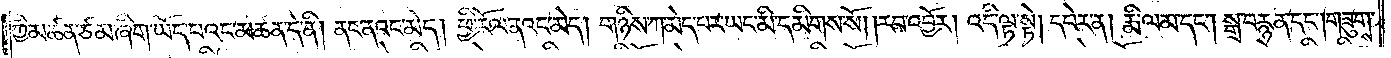ཀྱི་མཚན་ཙམ་ཞིག་ཡོད་པའང་མཚན་དེ་ནི། ནང་ནའང་མེད། ཕྱི་རོལ་ནའང་མེད། གཉིས་ཀ་མེད་པར་ཡང་མི་དམིགས་སོ། །རབ་འབྱོར། འདི་ལྟ་སྟེ། དཔེར་ན། རྨི་ལམ་དང༌། སྒྲ་བརྙན་དང༌། གཟུགས་
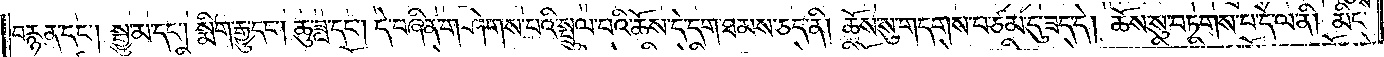བརྙན་དང༌། སྒྱུ་མ་དང༌། སྨིག་རྒྱུ་དང༌། ཆུ་ཟླ་དང༌། དེ་བཞིན་གཤེགས་པའི་སྤྲུལ་པའི་ཆོས་དེ་དག་ཐམས་ཅད་ནི། ཆོས་སུ་གདགས་པ་ཙམ་དུ་ཟད་དེ། ཆོས་སུ་བཏགས་པ་དེ་ལ་ནི། མིང་
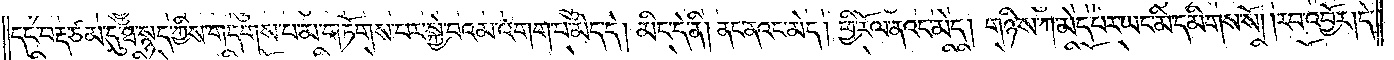དང་བརྡ་ཙམ་དུ་ཐ་སྙད་ཀྱིས་གདགས་པ་མ་གཏོགས་པར་སྐྱེ་བའམ་འགག་པ་མེད་དེ། མིང་དེ་ནི། ནང་ནའང་མེད། ཕྱི་རོལ་ནའང་མེད། གཉིས་ཀ་མེད་པར་ཡང་མི་དམིགས་སོ། །རབ་འབྱོར། དེ་
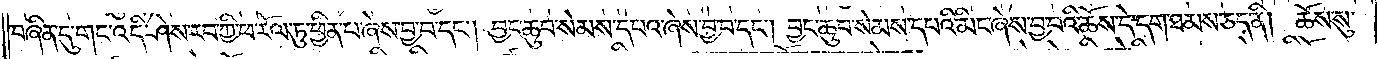བཞིན་དུ་གང་འདི་ཤེས་རབ་ཀྱི་ཕ་རོལ་ཏུ་ཕྱིན་པ་ཞེས་བྱ་བ་དང༌། བྱང་ཆུབ་སེམས་དཔའ་ཞེས་བྱ་བ་དང༌། བྱང་ཆུབ་སེམས་དཔའི་མིང་ཞེས་བྱ་བའི་ཆོས་དེ་དག་ཐམས་ཅད་ནི། ཆོས་སུ་
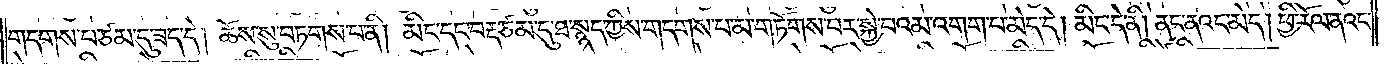གདགས་པ་ཙམ་དུ་ཟད་དེ། ཆོས་སུ་བཏགས་པ་ནི། མིང་དང་བརྡ་ཙམ་དུ་ཐ་སྙད་ཀྱིས་གདགས་པ་མ་གཏོགས་པར་སྐྱེ་བའམ་འགག་པ་མེད་དེ། མིང་དེ་ནི། ནང་ནའང་མེད། ཕྱི་རོལ་ནའང་
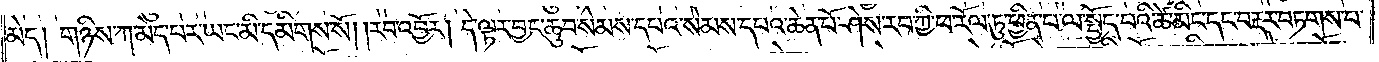མེད། གཉིས་ཀ་མེད་པར་ཡང་མི་དམིགས་སོ། །རབ་འབྱོར། དེ་ལར་བྱང་ཆུབ་སེམས་དཔའ་སེམས་དཔའ་ཆེན་པོ་ཤེས་རབ་ཀྱི་ཕ་རོལ་ཏུ་ཕྱིན་པ་ལ་སྤྱོད་པའི་ཚེ་མིང་དང་བརྡར་བཏགས་པ་
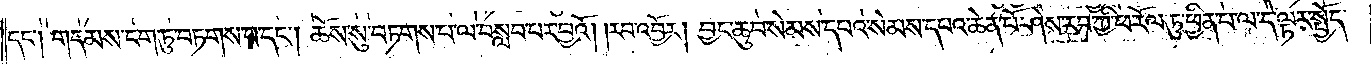དང༌། གདམས་ངག་ཏུ་བཏགས་པ་དང༌། ཆོས་སུ་བཏགས་པ་ལ་བསླབ་པར་བྱའོ། །རབ་འབྱོར། བྱང་ཆུབ་སེམས་དཔའ་སེམས་དཔའ་ཆེན་པོ་ཤེས་རབ་ཀྱི་ཕ་རོལ་ཏུ་ཕྱིན་པ་ལ་དེ་ལྟར་སྤྱོད་
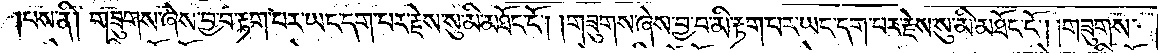པས་ནི། གཟུགས་ཞེས་བྱ་བ་རྟག་པར་ཡང་དག་པར་རྗེས་སུ་མི་མཐོང་ངོ༌། །གཟུགས་ཞེས་བྱ་བ་མི་རྟག་པར་ཡང་དག་པར་རྗེས་སུ་མི་མཐོང་ངོ༌། །གཟུགས་
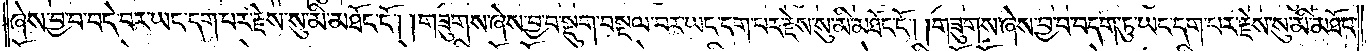ཞེས་བྱ་བ་བདེ་བར་ཡང་དག་པར་རྗེས་སུ་མི་མཐོང་ངོ༌། །གཟུགས་ཞེས་བྱ་བ་སྡུག་བསྔལ་བར་ཡང་དག་པར་རྗེས་སུ་མིང་མཐོང་ངོ༌། །གཟུགས་ཞེས་བྱ་བ་བདག་ཏུ་ཡང་དག་པར་རྗེས་སུ་མི་མཐོང་
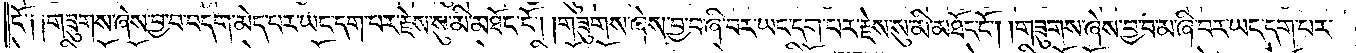ངོ༑ ༑གཟུགས་ཞེས་བྱ་བ་བདག་མེད་པར་ཡང་དག་པར་རྗེས་སུ་མི་མཐོང་ངོ༌། །གཟུགས་ཞེས་བྱ་བ་ཞི་བར་ཡང་དག་པར་རྗེས་སུ་མི་མཐོང་ངོ༌། །གཟུགས་ཞེས་བྱ་བ་མ་ཞི་བར་ཡང་དག་པར་
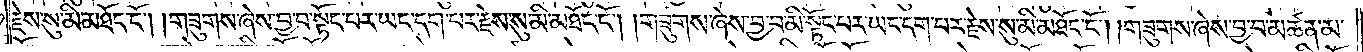རྗེས་སུ་མི་མཐོང་ངོ༌། །གཟུགས་ཞེས་བྱ་བ་སྟོང་པར་ཡང་དག་པར་རྗེས་སུ་མི་མཐོང་ངོ༌། །གཟུགས་ཞེས་བྱ་བ་མི་སྟོང་པར་ཡང་དག་པར་རྗེས་སུ་མི་མཐོང་ངོ༌། །གཟུགས་ཞེས་བྱ་བ་མཚན་མ་
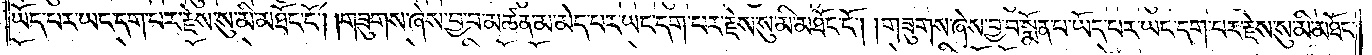ཡོད་པར་ཡང་དག་པར་རྗེས་སུ་མི་མཐོང་ངོ༌། །གཟུགས་ཞེས་བྱ་བ་མཚན་མ་མེད་པར་ཡང་དག་པར་རྗེས་སུ་མི་མཐོང་ངོ༌། །གཟུགས་ཞེས་བྱ་བ་སྨོན་པ་ཡོད་པར་ཡང་དག་པར་རྗེས་སུ་མི་མཐོང་
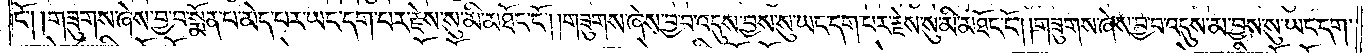ངོ༌། །གཟུགས་ཞེས་བྱ་བ་སྨོན་པ་མེད་པར་ཡང་དག་པར་རྗེས་སུ་མི་མཐོང་ངོ༌། །གཟུགས་ཞེས་བྱ་བ་འདུས་བྱས་སུ་ཡང་དག་པར་རྗེས་སུ་མི་མཐོང་ངོ༌། །གཟུགས་ཞེས་བྱ་བ་འདུས་མ་བྱས་སུ་ཡང་དག་
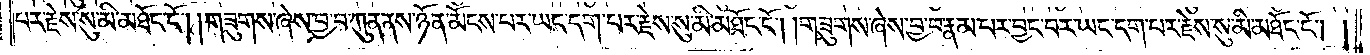པར་རྗེས་སུ་མི་མཐོང་ངོ༌། །གཟུགས་ཞེས་བྱ་བ་ཀུན་ནས་ཉོན་མོངས་པར་ཡང་དག་པར་རྗེས་སུ་མི་མཐོང་ངོ༌། །གཟུགས་ཞེས་བྱ་བ་རྣམ་པར་བྱང་བར་ཡང་དག་པར་རྗེས་སུ་མི་མཐོང་ངོ༌། །
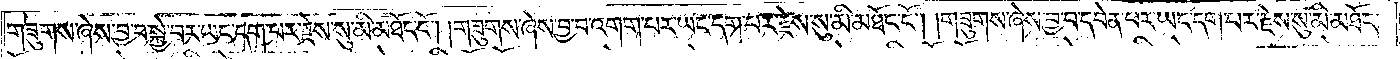གཟུགས་ཞེས་བྱ་བ་སྐྱེ་བར་ཡང་དག་པར་རྗེས་སུ་མི་མཐོང་ངོ༌། །གཟུགས་ཞེས་བྱ་བ་འགག་པར་ཡང་དག་པར་རྗེས་སུ་མི་མཐོང་ངོ༌། །གཟུགས་ཞེས་བྱ་བ་དབེན་པར་ཡང་དག་པར་རྗེས་སུ་མི་མཐོང་
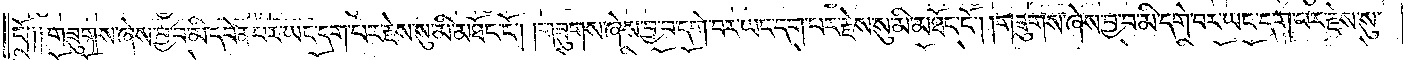ངོ༑ ༑གཟུགས་ཞེས་བྱ་བ་མི་དབེན་པར་ཡང་དག་པར་རྗེས་སུ་མི་མཐོང་ངོ༌། །གཟུགས་ཞེས་བྱ་བ་དགེ་བར་ཡང་དག་པར་རྗེས་སུ་མི་མཐོང་ངོ༌། །གཟུགས་ཞེས་བྱ་བ་མི་དགེ་བར་ཡང་དག་པར་རྗེས་སུ་
